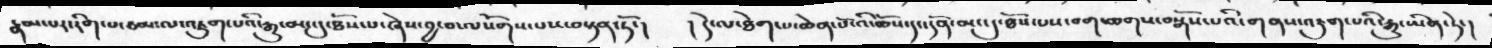རྣམ་པར་རིག་པ་ཙམ་ལ་འཇུག་པའི་རྒྱུ་མང་དུ་ཐོས་པ་ཞེས་བྱ་བ་ལསོགས་པས་བསྟན་ཏོ་།   །དེ་ལ་ཐེག་པ་ཆེན་པོ་འི་ཆོས་དང་དོན་མང་དུ་ཐོས་པས་བག་ཆགས་བསྒོས་པའི་གནས་འཇུག་པའི་རྒྱུ་ཡིན་ཏེ་།
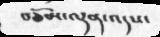བཅོམ་ལྡན་འདས་
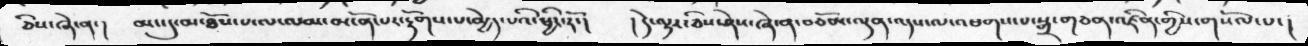ཅིས་ཞེ་ན་།  མང་དུ་མ་ཐོས་པ་ལ་ལམ་མངོན་པར་རྟོགས་པ་མྱེད་པའི་ཕྱིར་རོ་།  ། དེ་ལྟར་ཅིས་ཤེས་ཞེ་ན་མཅོམ་ལྡན་འདས་ལ་འཕགས་པ་སྒྲ་གཅན་འཛིན་གྱིས་གསོལ་པ་།
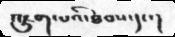འཇུག་པའི་ཐབས་དང་།
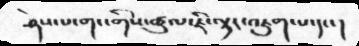ཤེས་པ་གང་གིས་ཚུལ་ཇི་ལྟར་འཇུག་པ་དང་།
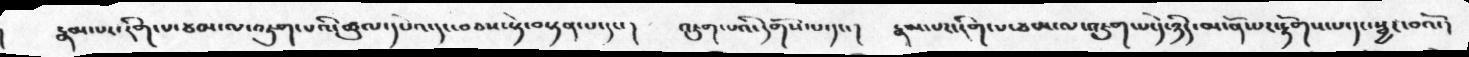རྣམ་པར་རིག་པ་ཙམ་ལ་འཇུག་པའི་ཚུལ་དཔེའ་དང་བཅས་སྟེ་བསྟན་པ་དང་།  འཇུག་པའི་དགོས་པ་དང་།  རྣམ་པར་རིག་པ་ཙམ་ལ་འཇུག་པ་དེ་ཉིད་མངོན་པར་རྟོགས་པ་དང་སྦྱར་བའོ་།
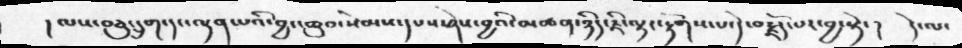།  ལས་བཅུ་དྲུག་དང་ལྡན་པའི་བྱང་ཆུབ་སེམས་དཔས་ཤེས་བྱའི་མཚན་ཉིད་ཇི་ལྟར་རྟོགས་པ་དེ་བརྗོད་པར་བྱ་སྟེ་།   དེ་ལ་
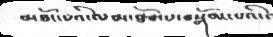མཐོང་པའི་ལམ་ཐོབ་པ་བསྒོམ་པའི་
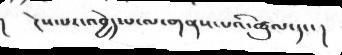།   ངེས་པར་འབྱེད་པ་ལ་གནས་པའི་ཚུལ་དང་།
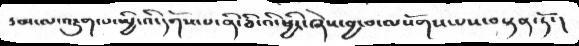ཙམ་ལ་འཇུག་པ་སྤྱི་འི་དགོས་པ་ནི་ཅི་འི་ཕྱིར་ཞེས་བྱ་བ་ལསོགས་པས་བསྟན་ཏོ་།
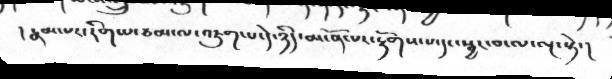། རྣམ་པར་རིག་པ་ཙམ་ལ་འཇུག་པ་དེ་ཉིད་མངོན་པར་རྟོགས་པ་དང་སྦྱར་བ་ལ་ལྔ་སྟེ་།
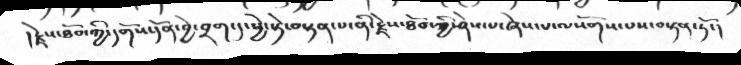།རྗེས་ཐོབ་ཀྱི་དགོས་དོན་བྱེ་བྲག་དུ་ཕྱེ་སྟེ་བསྟན་པ་ནི་རྗེས་ཐོབ་ཀྱི་ཤེས་པ་ཞེས་པ་ལསོགས་པས་བསྟན་ཏོ་།
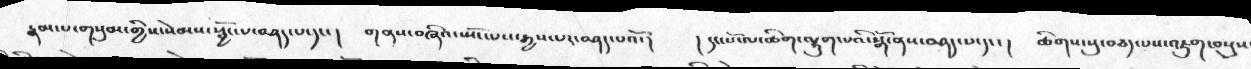རྣམ་པ་གསུམ་གྱིས་སེམས་སྦྱོང་པ་བཤད་པ་དང་།  གནས་བཞིའ་ཡོད་པས་རྒྱས་པར་བཤད་པའོ་།  ། དང་པོ་ལ་ཚིག་ལྷུག་པའི་སྒོ་ནས་བཤད་པ་དང་།  ཚིགས་སུ་བཅད་པས་འཇུག་བསྡུས་
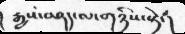རྒྱས་བཤད་ལ་གཉིས་སྟེ་།
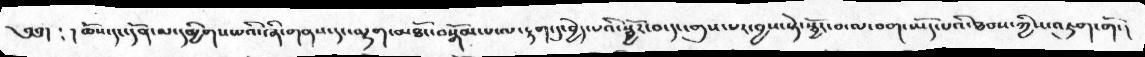༄༅། ༴  ། ཆོས་དང་དོན་མ་དམྱིགས་པའི་ཞི་གནས་དང་ལྷག་མཐོང་བསྒོམ་པ་ལ་རྟག་དུ་བྱེད་པའི་སྦྱོར་བ་དང་གུས་པར་བྱས་སྟེ་སྦྱོར་བ་ལ་བག་ཡོད་པའི་ཐབས་ཀྱིས་འཇུག་གོ་།
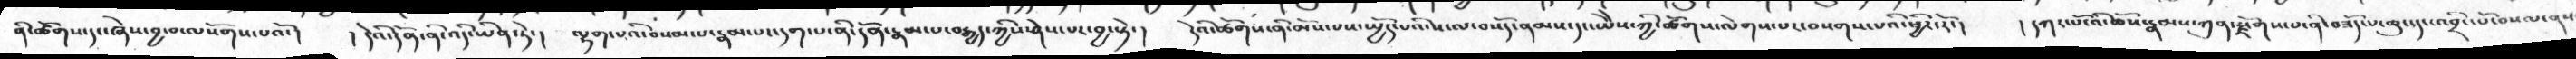ནི་ཚོགས་དང་ཞེས་བྱ་བ་ལསོགས་པའོ་།  ། དེའི་དོན་ནི་འདི་ཡིན་ཏེ་།  ལྷག་པའི་བསམ་པ་རྣམ་པར་དག་པ་ནི་དོན་རྣམ་པ་བརྒྱད་ཀྱིས་ཤེས་པར་བྱ་སྟེ་།  དེའི་ཚོགས་ནི་མོས་པས་སྤྱོད་པའི་ས་ལ་བསོད་ནམས་དང་ཡེེས་ཀྱི་ཚོགས་ལེགས་པར་བསགས་པའི་ཕྱིར་རོ་།  ། དཀར་པོའི་ཆོས་རྣམས་ཀུན་རྫོགས་པ་ནི་བཟོད་པ་ཆུང་དང་འབྲིང་པོ་བསལ་ནས་
